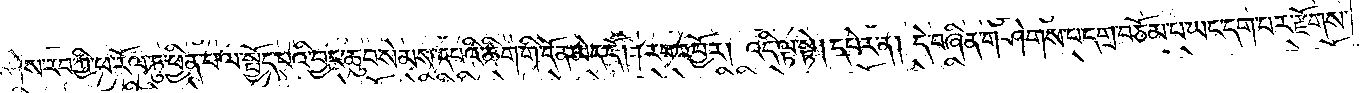ཤེས་རབ་ཀྱི་ཕ་རོལ་ཏུ་ཕྱིན་པ་ལ་སྤྱོད་པའི་བྱང་ཆུབ་སེམས་དཔའི་ཚིག་གི་དོན་མེད་དོ། །རབ་འབྱོར། འདི་ལྟ་སྟེ། དཔེར་ན། དེ་བཞིན་གཤེགས་པ་དགྲ་བཅོམ་པ་ཡང་དག་པར་རྫོགས་
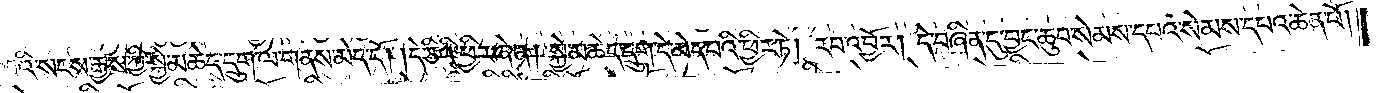པའི་སངས་རྒྱས་ཀྱི་སྐྱེ་མཆེད་དྲུག་ལ་གནས་མེད་དོ། །དེ་ཅིའི་ཕྱིར་ཞེ་ན། སྐྱེ་མཆེད་དྲུག་དེ་མེད་པའི་ཕྱིར་ཏེ། རབ་འབྱོར། དེ་བཞིན་དུ་བྱང་ཆུབ་སེམས་དཔའ་སེམས་དཔའ་ཆེན་པོ།
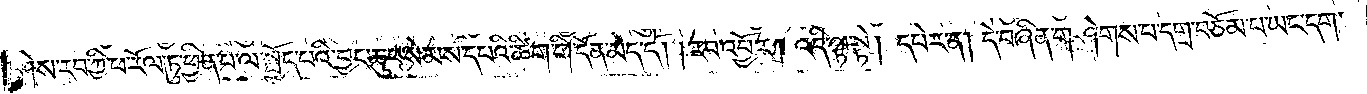ཤེས་རབ་ཀྱི་ཕ་རོལ་ཏུ་ཕྱིན་པ་ལ་སྤྱོད་པའི་བྱང་ཆུབ་སེམས་དཔའི་ཚིག་གི་དོན་མེད་དོ། །རབ་འབྱོར། འདི་ལྟ་སྟེ། དཔེར་ན། དེ་བཞིན་གཤེགས་པ་དགྲ་བཅོམ་པ་ཡང་དག་
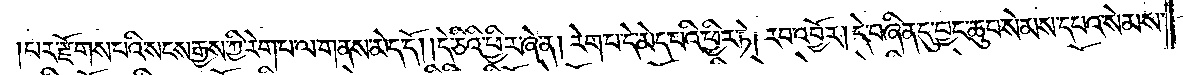པར་རྫོགས་པའི་སངས་རྒྱས་ཀྱི་རེག་པ་ལ་གནས་མེད་དོ། །དེ་ཅིའི་ཕྱིར་ཞེ་ན། རེག་པ་དེ་མེད་པའི་ཕྱིར་ཏེ། རབ་འབྱོར། དེ་བཞིན་དུ་བྱང་ཆུབ་སེམས་དཔའ་སེམས་
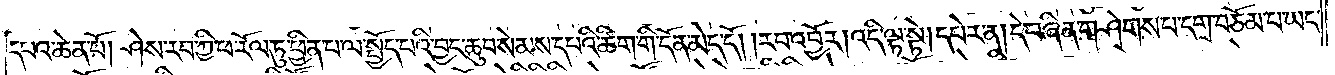དཔའ་ཆེན་པོ། ཤེས་རབ་ཀྱི་ཕ་རོལ་ཏུ་ཕྱིན་པ་ལ་སྤྱོད་པའི་བྱང་ཆུབ་སེམས་དཔའི་ཚིག་གི་དོན་མེད་དོ། །རབ་འབྱོར། འདི་ལྟ་སྟེ། དཔེར་ན། དེ་བཞིན་གཤེགས་པ་དགྲ་བཅོམ་པ་ཡང་
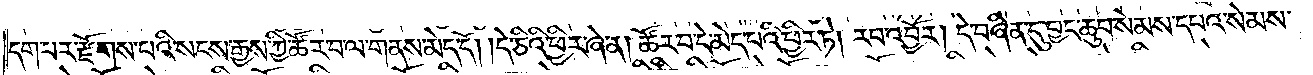དག་པར་རྫོགས་པའི་སངས་རྒྱས་ཀྱི་ཚོར་བ་ལ་གནས་མེད་དོ། །དེ་ཅིའི་ཕྱིར་ཞེ་ན། ཚོར་བ་དེ་མེད་པའི་ཕྱིར་ཏེ། རབ་འབྱོར། དེ་བཞིན་དུ་བྱང་ཆུབ་སེམས་དཔའ་སེམས་
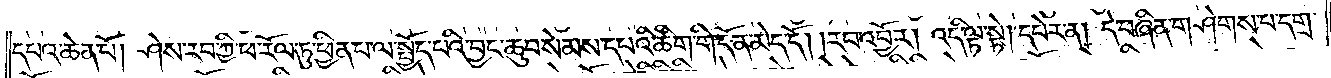དཔའ་ཆེན་པོ། ཤེས་རབ་ཀྱི་ཕ་རོལ་ཏུ་ཕྱིན་པ་ལ་སྤྱོད་པའི་བྱང་ཆུབ་སེམས་དཔའི་ཚིག་གི་དོན་མེད་དོ། །རབ་འབྱོར། འདི་ལྟ་སྟེ། དཔེར་ན། དེ་བཞིན་གཤེགས་པ་དགྲ་
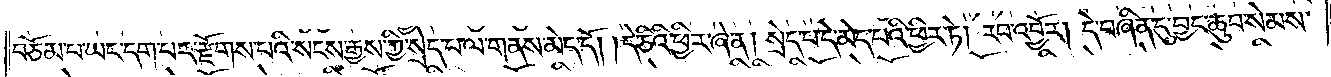བཅོམ་པ་ཡང་དག་པར་རྫོགས་པའི་སངས་རྒྱས་ཀྱི་སྲེད་པ་ལ་གནས་མེད་དོ། །དེ་ཅིའི་ཕྱིར་ཞེ་ན། སྲེད་པ་དེ་མེད་པའི་ཕྱིར་ཏེ། རབ་འབྱོར། དེ་བཞིན་དུ་བྱང་ཆུབ་སེམས་
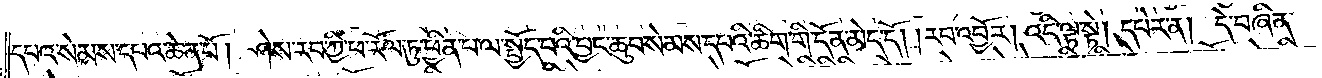དཔའ་སེམས་དཔའ་ཆེན་པོ། ཤེས་རབ་ཀྱི་ཕ་རོལ་ཏུ་ཕྱིན་པ་ལ་སྤྱོད་པའི་བྱང་ཆུབ་སེམས་དཔའི་ཚིག་གི་དོན་མེད་དོ། །རབ་འབྱོར། འདི་ལ་སྟེ། དཔེར་ན། དེ་བཞིན་
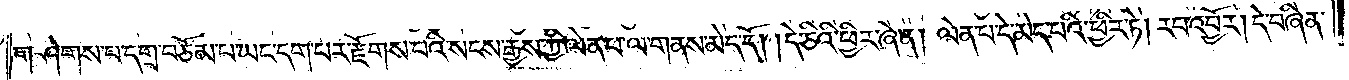གཤེགས་པ་དགྲ་བཅོམ་པ་ཡང་དག་པར་རྫོགས་པའི་སངས་རྒྱས་ཀྱི་ལེན་པ་ལ་གནས་མེད་དོ། །དེ་ཅིའི་ཕྱིར་ཞེ་ན། ལེན་པ་དེ་མེད་པའི་ཕྱིར་ཏེ། རབ་འབྱོར། དེ་བཞིན་
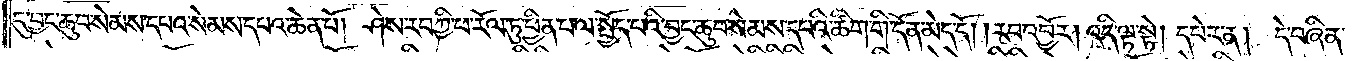དུ་བྱང་ཆུབ་སེམས་དཔའ་སེམས་དཔའ་ཆེན་པོ། ཤེས་རབ་ཀྱི་ཕ་རོལ་ཏུ་ཕྱིན་པ་ལ་སྤྱོད་པའི་བྱང་ཆུབ་སེམས་དཔའི་ཚིག་གི་དོན་མེད་དོ། །རབ་འབྱོར། འདི་ལྟ་སྟེ། དཔེར་ན། དེ་བཞིན་
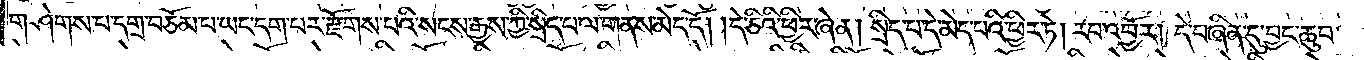གཤེགས་པ་དགྲ་བཅོམ་པ་ཡང་དག་པར་རྫོགས་པའི་སངས་རྒྱས་ཀྱི་སྲིད་པ་ལ་གནས་མེད་དོ། །དེ་ཅིའི་ཕྱིར་ཞེ་ན། སྲིད་པ་དེ་མེད་པའི་ཕྱིར་ཏེ། རབ་འབྱོར། དེ་བཞིན་དུ་བྱང་ཆུབ་
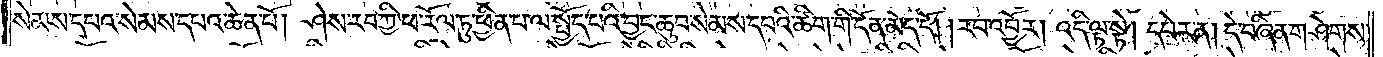སེམས་དཔའ་སེམས་དཔའ་ཆེན་པོ། ཤེས་རབ་ཀྱི་ཕ་རོལ་ཏུ་ཕྱིན་པ་ལ་སྤྱོད་པའི་བྱང་ཆུབ་སེམས་དཔའི་ཚིག་གི་དོན་མེད་དོ། །རབ་འབྱོར། འདི་ལྟ་སྟེ། དཔེར་ན། དེ་བཞིན་གཤེགས་
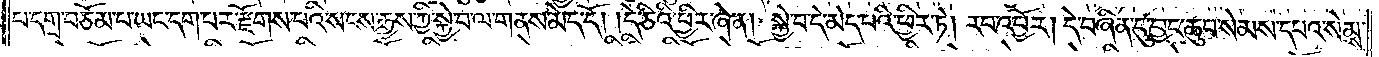པ་དགྲ་བཅོམ་པ་ཡང་དག་པར་རྫོགས་པའི་སངས་རྒྱས་ཀྱི་སྐྱེ་བ་ལ་གནས་མེད་དོ། །དེ་ཅིའི་ཕྱིར་ཞེ་ན། སྐྱེ་བ་དེ་མེད་པའི་ཕྱིར་ཏེ། རབ་འབྱོར། དེ་བཞིན་དུ་བྱང་ཆུབ་སེམས་དཔའ་སེམས་
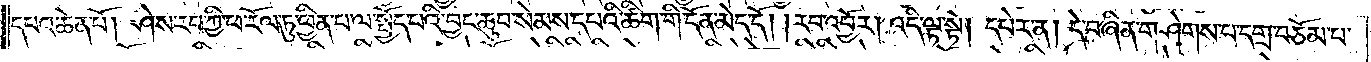དཔའ་ཆེན་པོ། ཤེས་རབ་ཀྱི་ཕ་རོལ་ཏུ་ཕྱིན་པ་ལ་སྤྱོད་པའི་བྱང་ཆུབ་སེམས་དཔའི་ཚིག་གི་དོན་མེད་དོ། །རབ་འབྱོར། འདི་ལྟ་སྟེ། དཔེར་ན། དེ་བཞིན་གཤེགས་པ་དགྲ་བཅོམ་པ་
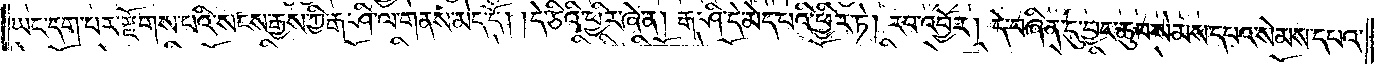ཡང་དག་པར་རྫོགས་པའི་སངས་རྒྱས་ཀྱི་རྒ་ཤི་ལ་གནས་མེད་དོ། །དེ་ཅིའི་ཕྱིར་ཞེ་ན། རྒ་ཤི་དེ་མེད་པའི་ཕྱིར་ཏེ། རབ་འབྱོར། དེ་བཞིན་དུ་བྱང་ཆུབ་སེམས་དཔའ་སེམས་དཔའ་
